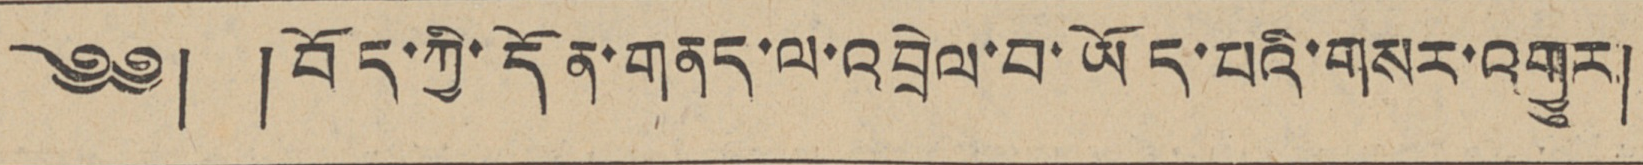༄༅། །བོད་ཀྱི་དོན་གནད་ལ་འབྲེལ་བ་ཡོད་པའི་གསར་འགྱུར།
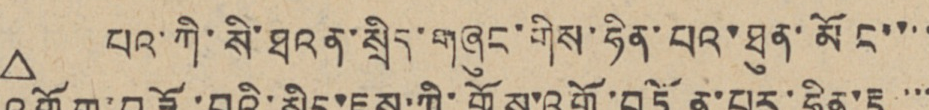△ པའ་ཀི་སི་ཐའན་སྲིད་གཞུང་གིས་ཧིན་པའ་ཐུན་མོང་་་་
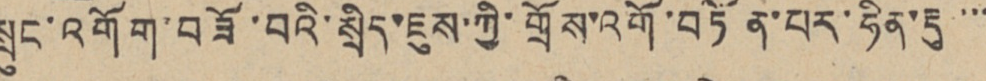སྲུང་འགོག་བཟོ་བའི་སྲིད་ཇུས་ཀྱི་གྲོས་འགོ་བཏོན་པར་ཧིན་རྡུ་་་
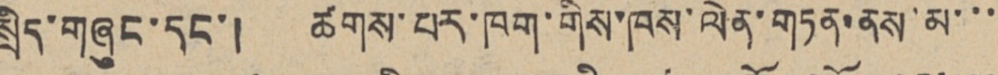སྲིད་གཞུང་དང་། ཚགས་པར་ཁག་གིས་ཁས་ལེན་གཏན་ནས་མ་་་
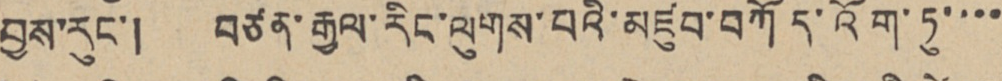བྱས་རུང་། བཙན་རྒྱལ་རིང་ལུགས་པའི་མཛུབ་བཀོད་འོག་ཏུ་་་་
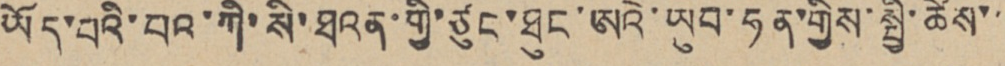ཡོད་པའི་པའ་ཀི་སི་ཐའན་གྱི་ཙུང་ཐུང་ཨའེ་ཡུབ་ཧན་གྱིས་སྤྱི་ཚེས་་
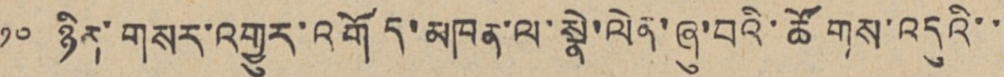༡༠ ཉིན་གསར་འགྱུར་འགོད་མཁན་ལ་སྣེ་ལེན་ཞུ་བའི་ཚོགས་འདུའི་་
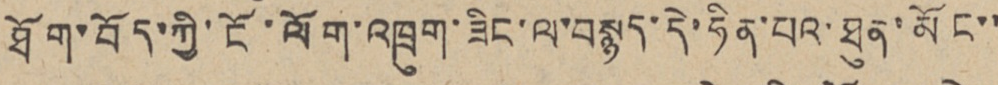ཐོག་བོད་ཀྱི་ངོ་ལོག་འཁྲུག་ཟིང་ལ་བསྙད་དེ་ཧིན་པའ་ཐུན་མོང་་
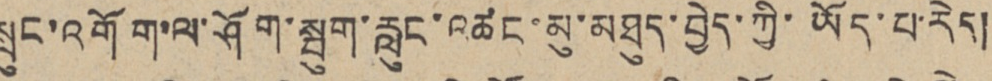སྲུང་འགོག་ལ་ཤོག་སྦུག་རླུང་འཚང་མུ་མཐུད་བྱེད་ཀྱི་ཡོད་པ་རེད།
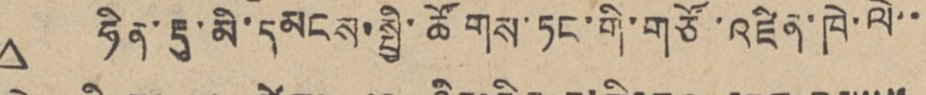△ ཧིན་རྡུ་མི་དམངས་སྤྱི་ཚོགས་ཏང་གི་གཙོ་འཛིན་ཁེ་ལེ་་
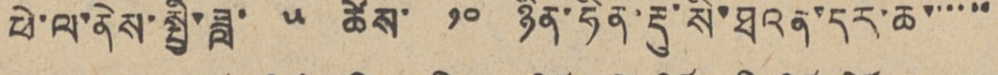ཕེ་ལ་ནེས་སྤྱི་ཟླ་ ༥ ཚེས་ ༡༠ ཉིན་ཧིན་རྡུ་སི་ཐའན་དར་ཆ་་་་་་
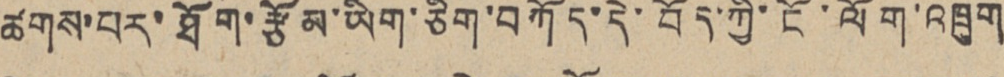ཚགས་པར་ཐོག་རྩོམ་ཡིག་ཅིག་བཀོད་དེ་བོད་ཀྱི་ངོ་ལོག་འཁྲུག
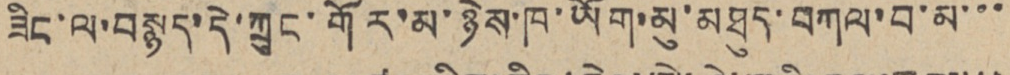ཟིང་ལ་བསྙད་དེ་ཀྲུང་གོར་མ་ཉེས་ཁ་ཡོག་མུ་མཐུད་བཀལ་བ་མ་་་
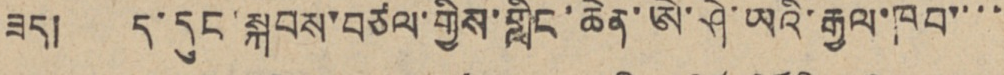ཟད། ད་དུང་སྐབས་བཙལ་གྱིས་གླིང་ཆེན་ཨེ་ཤེ་ཡའི་རྒྱལ་ཁབ་་་་
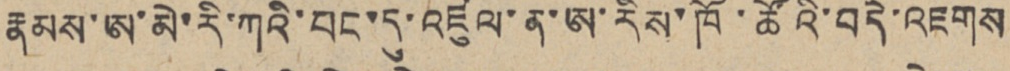རྣམས་ཨ་མེ་རི་ཀའི་བང་དུ་འཛུལ་ན་ཨ་རིས་ཁོ་ཚོའི་བདེ་འཇགས
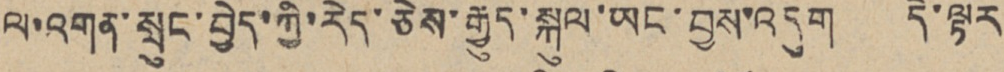ལ་འགན་སྲུང་བྱེད་ཀྱི་རེད་ཅེས་རྒྱུད་སྐུལ་ཡང་བྱས་འདུག དེ་ལྟར
